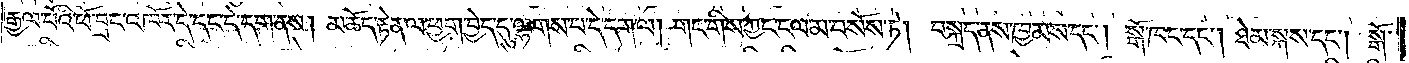རྒྱལ་པོའི་ཕོ་བྲང་འཁོར་དེ་དང་དེ་དག་ནས། མཆོད་རྟེན་ལ་ཕྱག་བྱེད་དུ་ལྷགས་པ་དེ་དག་ལ། གང་གིས་ཀྱང་ངལ་མ་བསོས་ཏེ། བསྐྲད་ནས་ཁྱམས་དང༌། སྒོ་ཁང་དང༌། ཐེམ་སྐས་དང༌། སྒོ་
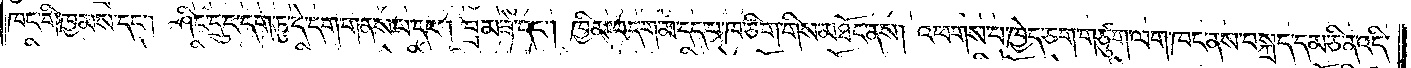ཁང་གི་ཁྱམས་དང༌། ཤིང་དྲུང་དག་ཏུ་དེ་དག་གནས་པ་དང༌། བྲམ་ཟེ་དང༌། ཁྱིམ་བདག་མ་དད་པ་ཁ་ཅིག་གིས་མཐོང་ནས། འཕགས་པ་ཁྱེད་ཅག་གཙུག་ལག་ཁང་ནས་བསྐྲད་དམ་ཅི་ན་འདི་
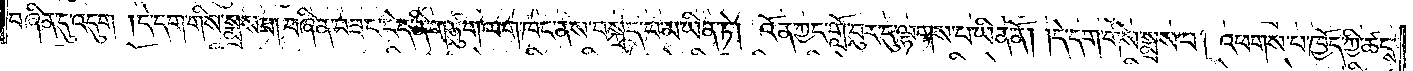བཞིན་དུ་འདུག །དེ་དག་གིས་སྨྲས་པ། བཞིན་བཟང་ངེད་ནི་གཙུག་ལག་ཁང་ནས་བསྐྲད་པ་མ་ཡིན་ཏེ། འོན་ཀྱང་གློ་བུར་དུ་ལྷགས་པ་ཡིན་ནོ། །དེ་དག་གིས་སྨྲས་པ། འཕགས་པ་ཁྱོད་ཀྱི་ཚངས་
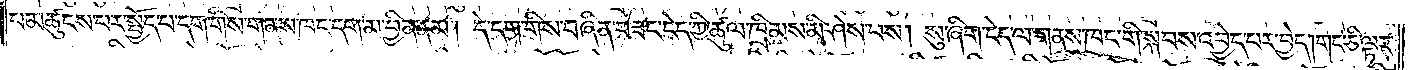པ་མཚུངས་པར་སྤྱོད་པ་དག་གིས་གནས་ཁང་དག་མ་བྱིན་ནམ། དེ་དག་གིས་བཞིན་བཟང་ངེད་ཀྱི་ཚུལ་ཁྲིམས་མི་ཤེས་པས། སུ་ཞིག་ངེད་ལ་གནས་ཁང་གི་སྐབས་འབྱེད་པར་བྱེད། གང་ཅི་ལྟར་
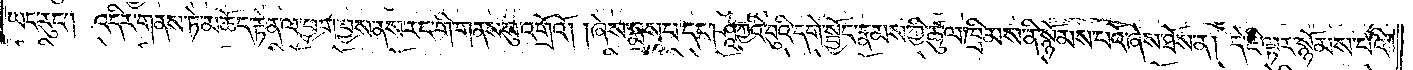ཡང་རུང༌། འདིར་གནས་ཏེ་མཆོད་རྟེན་ལ་ཕྱག་བྱས་ནས་རང་གི་གནས་སུ་འགྲོའོ། །ཞེས་སྨྲས་པ་དང༌། ཤཱཀྱའི་བུའི་དགེ་སྦྱོང་རྣམས་ཀྱི་ཚུལ་ཁྲིམས་ནི་སྙོམས་པའོ་ཞེས་ཐོས་ན། དེ་ཇི་ལྟར་སྙོམས་པའི་
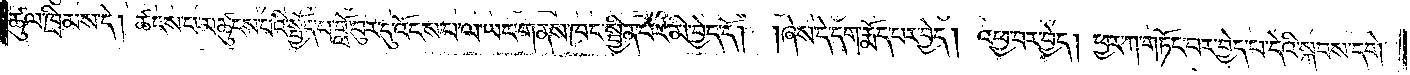ཚུལ་ཁྲིམས་དེ། ཚངས་པ་མཚུངས་པའི་སྤྱོད་པ་བློ་བུར་དུ་འོངས་པ་ལ་ཡང་གནས་ཁང་སྦྱིན་པར་མི་བྱེད་དོ། །ཞེས་དེ་དག་རྨོད་པར་བྱེད། འཕྱ་བར་བྱེད། ཕྱར་ཀ་གཏོང་བར་བྱེད་པ་དེའི་སྐབས་དགེ་
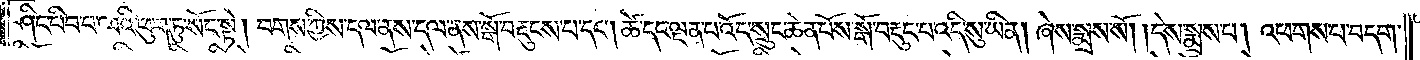ཤིང་བིབ་པ་ལའི་ཕུག་ཏུ་སོང་སྟེ། བགས་ཀྱིས་དལ་ནས་དལ་ནས་སྒོ་བརྡུངས་པ་དང༌། ཚེ་དང་ལྡན་པ་འོད་སྲུང་ཆེན་པོས་སྒོ་བརྡུང་པ་འདི་སུ་ཡིན། །ཞེས་སྨྲས་སོ། །དེས་སྨྲས་པ། འཕགས་པ་བདག་
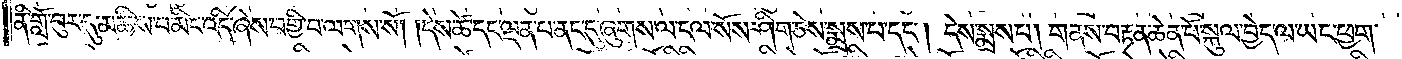ནི་གློ་བུར་དུ་མཆིས་པ་མིང་འདི་ཞེས་བགྱི་བ་ལགས་སོ། དེས་ཚེ་དང་ལྡན་པ་ནང་དུ་ཞུགས་ལ་ངལ་སོས་ཤིག་ཅེས་སྨྲས་པ་དང༌། དེས་སྨྲས་པ། གནས་བརྟན་ཆེན་པོ་སྐུལ་བྱེད་ལ་ཡང་ཕྱག་
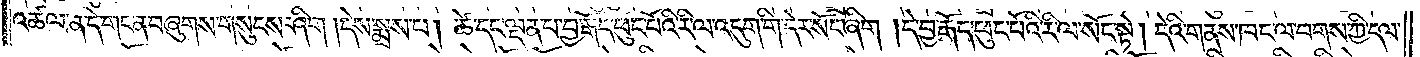འཚལ་ན་དེ་གང་ན་བཞུགས་གསུངས་ཤིག །དེས་སྨྲས་པ། ཚེ་དང་ལྡན་པ་བྱ་རྒོད་ཕུང་པོའི་རི་ལ་འདུག་གི་དེར་སོང་ཞིག །དེ་བྱ་རྒོད་ཕུང་པོའི་རི་ལ་སོང་སྟེ། དེའི་གནས་ཁང་ལ་བགས་ཀྱི་དལ་
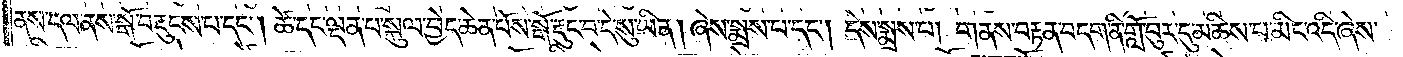ནས་དལ་ནས་སྒོ་བརྡུངས་པ་དང༌། ཚེ་དང་ལྡན་པ་སྐུལ་བྱེད་ཆེན་པོས་སྒོ་རྡུང་པ་དེ་སུ་ཡིན། ཞེས་སྨྲས་པ་དང༌། དེས་སྨྲས་པ། གནས་བརྟན་བདག་ནི་གློ་བུར་དུ་མཆིས་པ་མིང་འདི་ཞེས་
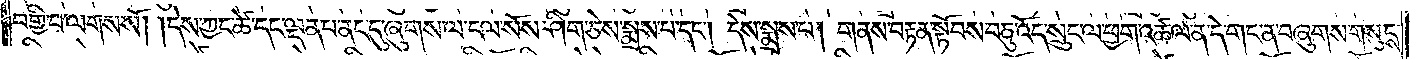བགྱི་བ་ལགས་སོ། །དེས་ཀྱང་ཚེ་དང་ལྡན་པ་ནང་དུ་ཞུགས་ལ་ངལ་སོས་ཤིག་ཅེས་སྨྲས་པ་དང༌། དེས་སྨྲས་པ། གནས་བརྟན་སྟོབས་བཅུ་འོད་སྲུང་ལ་ཕྱག་འཚལ་ན་དེ་གང་ན་བཞུགས་གསུངས་
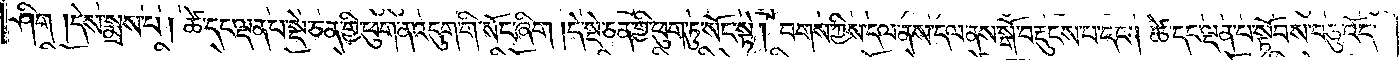ཤིག །དེས་སྨྲས་པ། ཚེ་དང་ལྡན་པ་སྡེ་ཅན་གྱི་ཕུག་ན་འདུག་གི་སོང་ཞིག །དེ་སྡེ་ཅན་གྱི་ཕུག་ཏུ་སོང་སྟེ། བགས་ཀྱིས་དལ་ནས་དལ་ནས་སྒོ་བརྡུངས་པ་དང༌། ཚེ་དང་ལྡན་པ་སྟོབས་བཅུ་འོད་
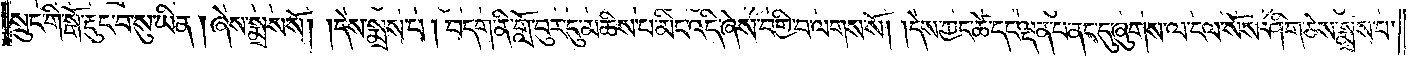སྲུང་གི་སྒོ་རྡུང་བ་སུ་ཡིན་།ཞེས་སྨྲས་སོ། །དེས་སྨྲས་པ། བདག་ནི་གློ་བུར་དུ་མཆིས་པ་མིང་འདི་ཞེས་བགྱི་བ་ལགས་སོ། །དེས་ཀྱང་ཚེ་དང་ལྡན་པ་ནང་དུ་ཞུགས་ལ་ངལ་སོས་ཤིག་ཅེས་སྨྲས་པ་
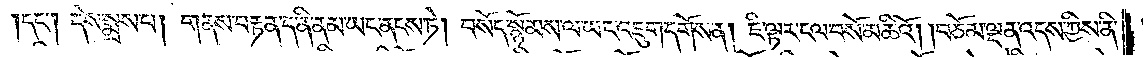དང༌། དེས་སྨྲས་པ། གནས་བརྟན་ད་ནི་ནམ་ཡང་ནངས་ཏེ། བསོད་སྙོམས་ལ་ཡང་འཇུག་དགོས་ན། ཇི་ལྟར་ངལ་བསོ་མཆིའོ། །བཅོམ་ལྡན་འདས་ཀྱིས་ནི་
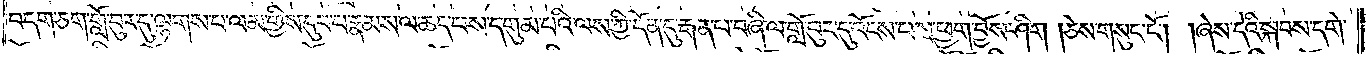བདག་ཅག་གློ་བུར་དུ་ལྷགས་པ་ལམ་གྱིས་དུབ་པ་རྣམས་ཆད་པས་དགུམ་པའི་ལས་ཀྱི་དོན་དུ་རྒན་པ་བཞི་ལ་གློ་བུར་དུ་འོངས་པས་ཕྱག་བྱོས་ཤིག །ཅེས་གསུངས་ངོ༌། །ཞེས་དེའི་སྐབས་དགེ་
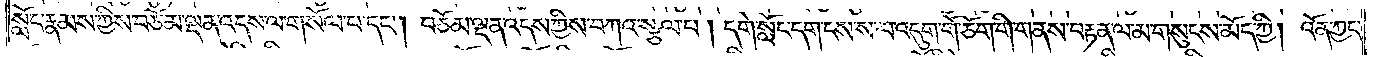སློང་རྣམས་ཀྱིས་བཅོམ་ལྡན་འདས་ལ་གསོལ་པ་དང༌། བཅོམ་ལྡན་འདས་ཀྱིས་བཀའ་སྩལ་པ། དགེ་སློང་དག་ངས་ས་ལ་འདུག་གོ་ཅོག་གི་གནས་བརྟན་ལ་མ་གསུངས་མོད་ཀྱི། འོན་ཀྱང་
